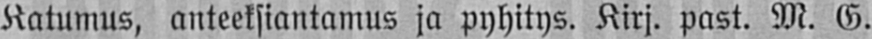Katumus, anteeksiantamus ja pyhitys. Kirj. past. M. G.
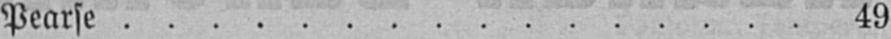Pearse 49
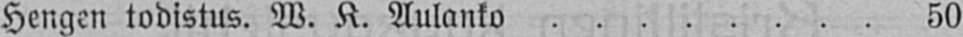Hengen todistus. W. K. Aulanko 50
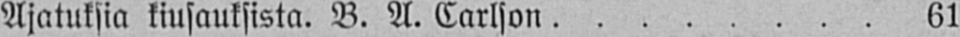Ajatuksia kiusauksista. B. A. Carlson 61
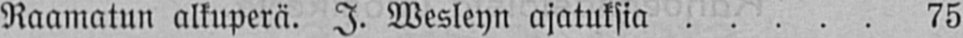Raamatun alkuperä. I. Wesleyn ajatuksia 75
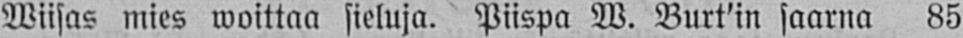Wiisas mies woittaa sieluja. Piispa W. Burt'in saarna 85
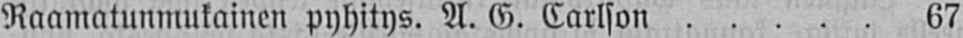Raamatunmukainen pyhitys. A. G. Carlson 67
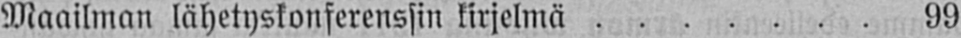Maailman lähetyskonferenssin kirjelmä 99
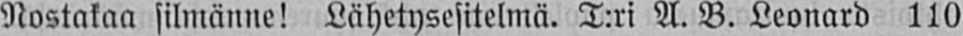Nostakaa silmänne! Lähetysesitelmä. T:ri A. B. Leonard 110
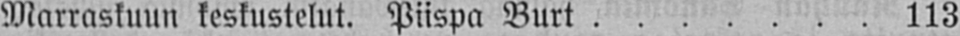Marraskuun keskustelut. Piispa Burt 113
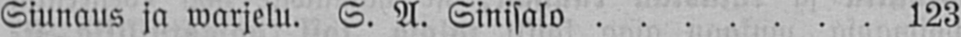Siunaus ja warjelu. S. A. Sinisalo 123
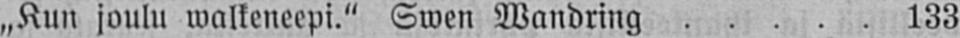„Kun joulu walkeneepi." Swen Wandring 133
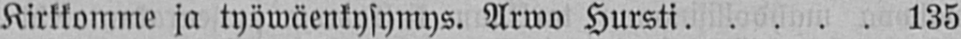Kirkkomme ja työwäenkysymys. Arwo Hursti 135
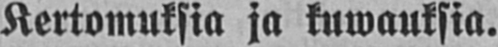Kertomuksia ja kuwauksia.
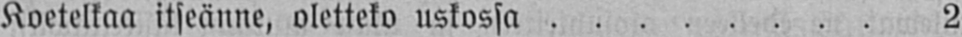Koetelkaa itseänne, oletteko uskossa 2
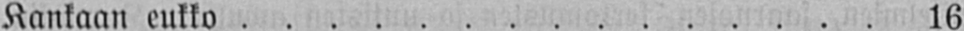Kankaan eukko 16
